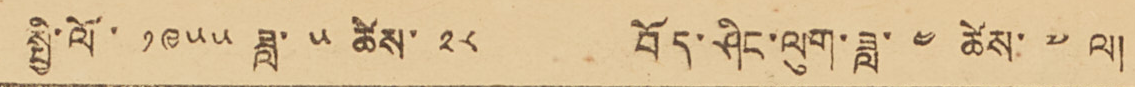6 སྤྱི་ལོ་ ༡༩༥༥ ཟླ་ ༥ ཚེས་ ༢༨ བོད་ཤིང་ལུག་ཟླ་ ༤ ཚེས་ ༧ ལ།
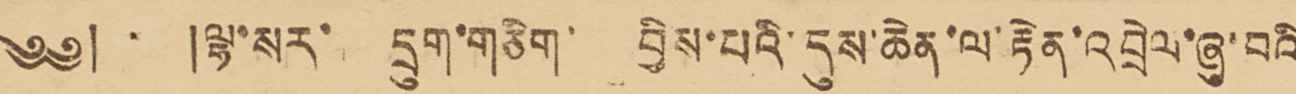༄༅། །ལྷ་སར་ དྲུག་གཅིག་ བྱིས་པའི་དུས་ཆེན་ལ་རྟེན་འབྲེལ་ཞུ་བའི་
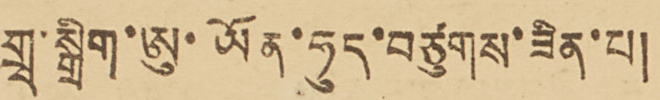གྲྭ་སྒྲིག་ཨུ་ཡོན་ཧུད་བཙུགས་ཟིན་པ།
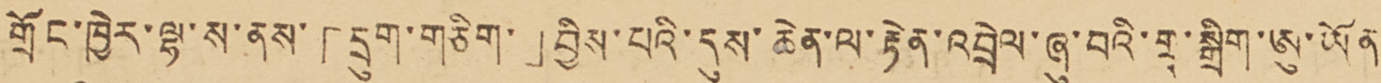གྲོང་ཁྱེར་ལྷ་ས་ནས་「དྲུག་གཅིག་」བྱིས་པའི་དུས་ཆེན་ལ་རྟེན་འབྲེལ་ཞུ་བའི་གྲྭ་སྒྲིག་ཨུ་ཡོན་
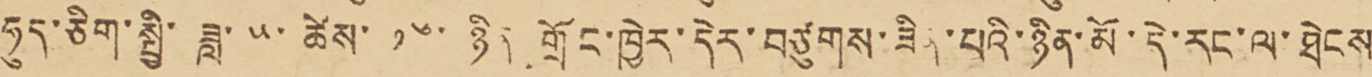ཧུད་ཅིག་སྤྱི་ཟླ་ ༥ ཚེས་ ༡༦ ཉིན་གྲོང་ཁྱེར་དེར་བཙུགས་ཟིན་པའི་ཉིན་མོ་དེ་རང་ལ་ཐེངས་
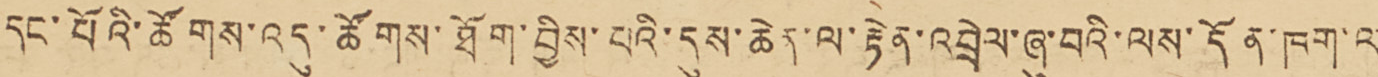དང་པོའི་ཚོགས་འདུ་ཚོགས་ཐོག་བྱིས་པའི་དུས་ཆེན་ལ་རྟེན་འབྲེལ་ཞུ་བའི་ལས་དོན་ཁག་ལ་
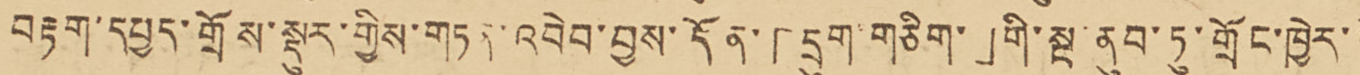བརྟག་དཔྱད་གྲོས་སྡུར་གྱིས་གཏན་འབེབ་བྱས་དོན་「དྲུག་གཅིག་」གི་སྔ་ནུབ་ཏུ་གྲོང་ཁྱེར་དེ་
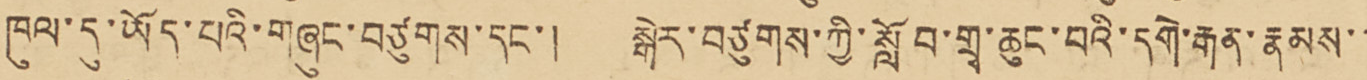ཁུལ་དུ་ཡོད་པའི་གཞུང་བཙུགས་དང་། སྒེར་བཙུགས་ཀྱི་སློབ་གྲྭ་ཆུང་བའི་དགེ་རྒན་རྣམས་་་
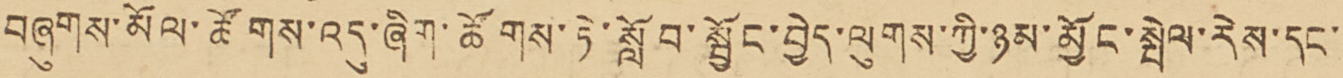བཞུགས་མོལ་ཚོགས་འདུ་ཞིག་ཚོགས་ཏེ་སློབ་སྦྱོང་བྱེད་ལུགས་ཀྱི་ཉམ་མྱོང་སྤེལ་རེས་དང་།
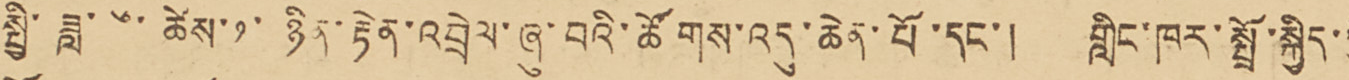སྤྱི་ཟླ་ ༦ ཚེས་ ༡ ཉིན་རྟེན་འབྲེལ་ཞུ་བའི་ཚོགས་འདུ་ཆེན་པོ་དང་། གླིང་ཁར་སྤྲོ་སྐྱིད་ཀྱི་
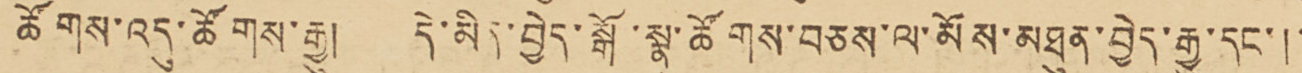ཚོགས་འདུ་ཚོགས་རྒྱུ། དེ་མིན་བྱེད་སྒོ་སྣ་ཚོགས་བཅས་ལ་མོས་མཐུན་བྱེད་རྒྱུ་དང་།་་
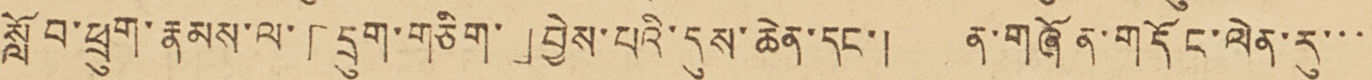སློབ་ཕྲུག་རྣམས་ལ་「དྲུག་གཅིག་」བྱེས་པའི་དུས་ཆེན་། ན་གཞོན་གདོང་ལེན་རུ་་་་
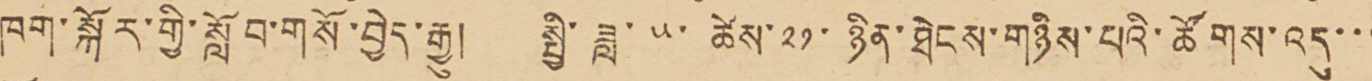ཁག་སྐོར་གྱི་སློབ་གསོ་བྱེད་རྒྱུ། སྤྱི་ཟླ་ ༥ ཚེས་ ༢༡ ཉིན་ཐེངས་གཉིས་པའི་ཚོགས་འདུ་་་
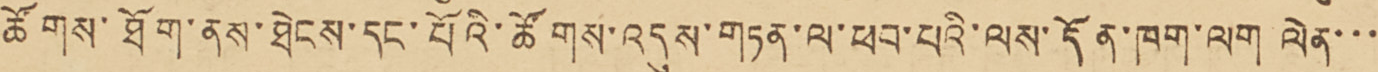ཚོགས་ཐོག་ནས་ཐེངས་དང་པོའི་ཚོགས་འདུས་གཏན་ལ་ཕབ་པའི་ལས་དོན་ཁག་ལག ལེན་་་
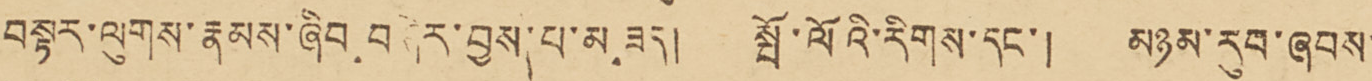བསྟར་ལུགས་རྣམས་ཞིབ བཤེར་བྱས་པ་མ་ཟད། སྤོ་ལོའི་རིགས་དང་། མཉམ་རུབ་ཞབས་
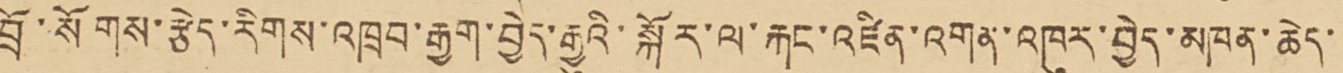བྲོ་སོགས་རྩེད་རིགས་འཁྲབ་རྒྱག་བྱེད་རྒྱུའི་སྐོར་ལ་རྐང་འཛིན་འགན་འཁུར་བྱེད་མཁན་ཆེད་་་
